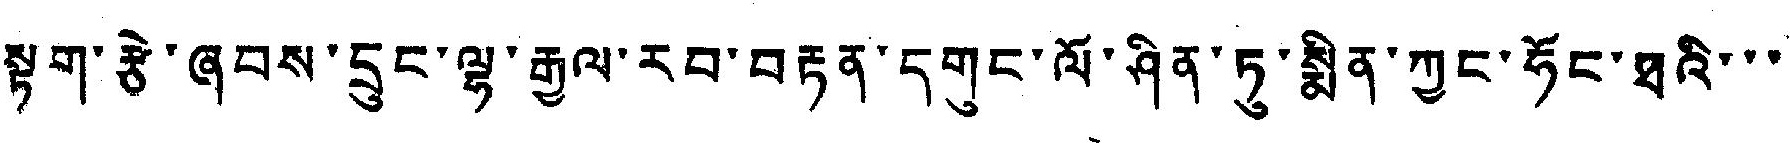ལྟག་རྩེ་ཞབས་དྲུང་ལྷ་རྒྱལ་རབ་བརྟན་དགུང་ལོ་ཤིན་ཏུ་སྨིན་ཀྱང་ཧོང་ཐའི་་་
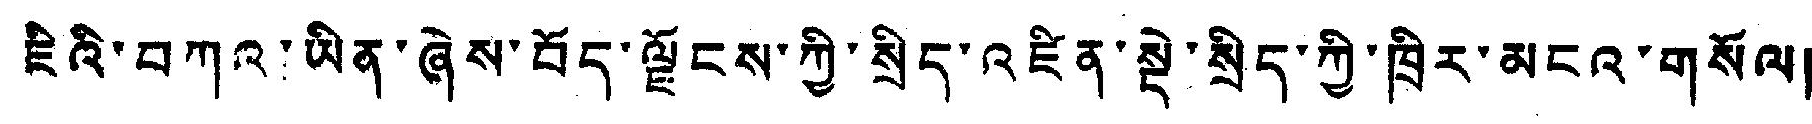ཇིའི་བཀའ་ཡིན་ཞེས་བོད་ལྗོངས་ཀྱི་སྲིད་འཛིན་སྡེ་སྲིད་ཀྱི་ཁྲིར་མངའ་གསོལ།
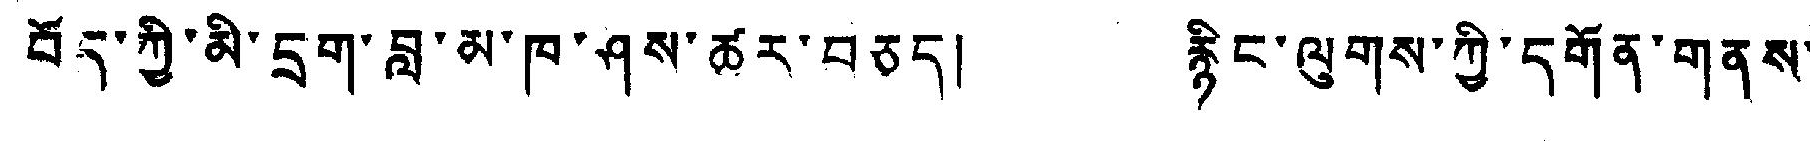བོད་ཀྱི་མི་དྲག་བླ་མ་ཁ་ཤས་ཚར་བཅད། རྙིང་ལུགས་ཀྱི་དགོན་གནས་
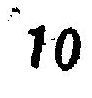10
